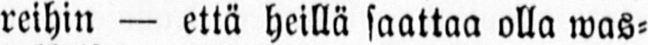reihin — että heillä saattaa olla was-
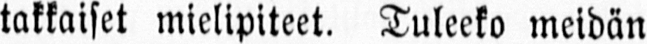takkaiset mielipiteet. Tuleeko meidän
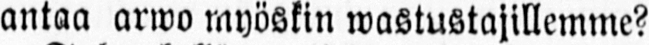antaa arwo myöskin wastustajillemme?
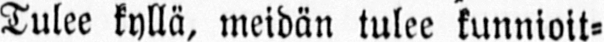Tulee kyllä, meidän tulee kunnioit-
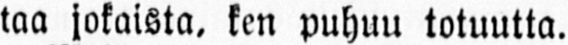taa jokaista, ken puhuu totuutta.
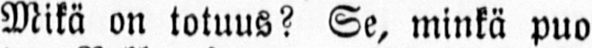Mikä on totuus? Se, minkä puo-
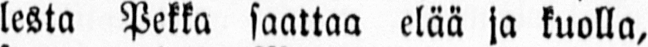lesta Pekka saattaa elää ja kuolla,
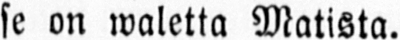se on waletta Matista.
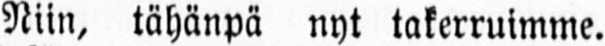Niin, tähänpä nyt takerruimme.
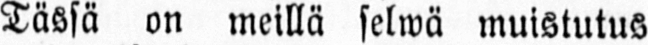Tässä on meillä selwä muistutus
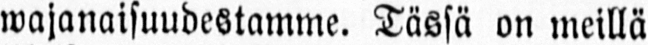wajanaisuudestamme. Tässä on meillä
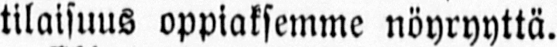tilaisuus oppiaksemme nöyryyttä.
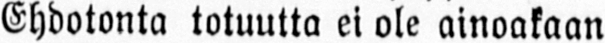Ehdotonta totuutta ei ole ainoakaan
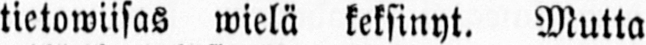tietowiisas welä keksinyt. Mutta
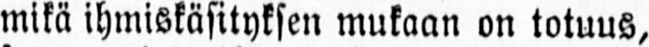mikä ihmiskäsityksen mukaan on totuus,
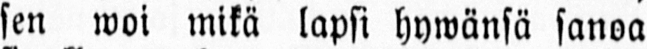sen woi mikä lapsi hywänsä sanoa
